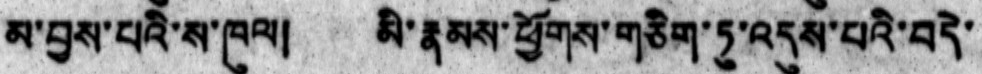མ་བྱས་པའི་ས་ཁུལ། མི་རྣམས་ཕྱོགས་གཅིག་ཏུ་འདུས་པའི་བདེ་
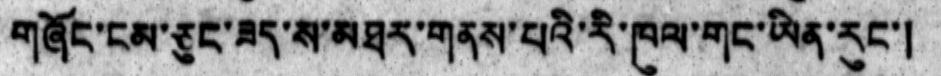གཞོང་ངམ་ཅུང་ཟད་ས་མཐར་གནས་པའི་རི་ཁུལ་གང་ཡིན་རུང་།
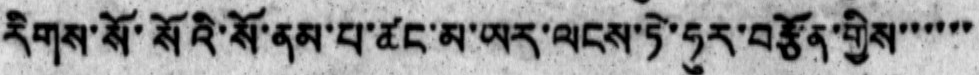རིགས་སོ་སོའི་སོ་ནམ་པ་ཚང་མ་ཡར་ལངས་ཏེ་ཧུར་བརྩོན་གྱིས་་་་་་
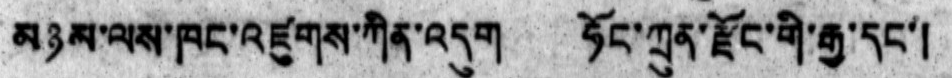མཉམ་ལས་ཁང་འཛུགས་ཀིན་འདུག ཧོང་ཀྲུན་རྫོང་གི་རྒྱ་དང་།
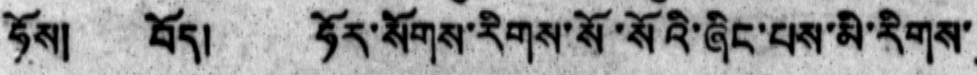ཧོས། བོད། ཧོར་སོགས་རིགས་སོ་སོའི་ཞིང་པས་མི་རིགས་
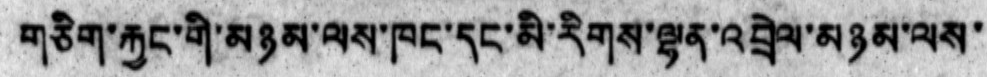གཅིག་རྐྱང་གི་མཉམ་ལས་ཁང་དང་མི་རིགས་ལྷན་འབྲེལ་མཉམ་ལས་
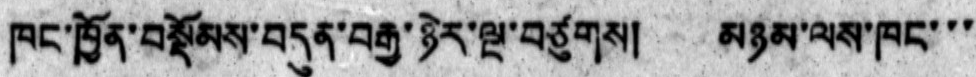ཁང་ཁྱོན་བསྡོམས་བདུན་བརྒྱ་ཉེར་ལྔ་བཙུགས། མཉམ་ལས་ཁང་་་
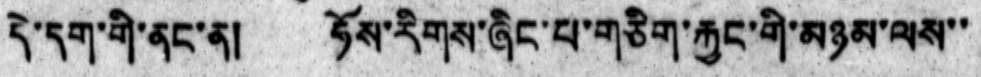དེ་དག་གི་ནང་ན། ཧོས་རིགས་ཞིང་པ་གཅིག་རྐྱང་གི་མཉམ་ལས་་
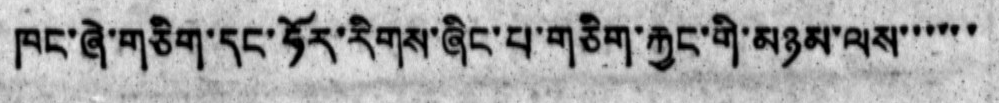ཁང་ཞེ་གཅིག་དང་ཧོར་རིགས་ཞིང་པ་གཅིག་རྐྱང་གི་མཉམ་ལས་་་་་་
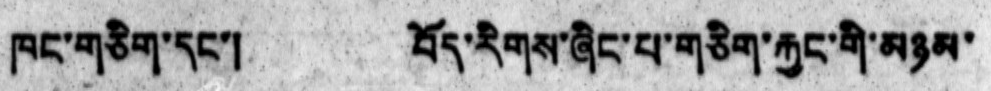ཁང་གཅིག་དང་། བོད་རིགས་ཞིང་པ་གཅིག་རྐྱང་གི་མཉམ་
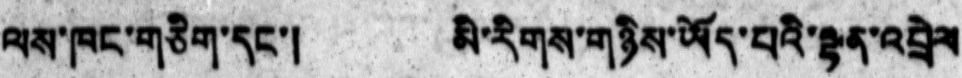ལས་ཁང་གཅིག་དང་། མི་རིགས་གཉིས་ཡོད་པའི་ལྷན་འབྲེལ
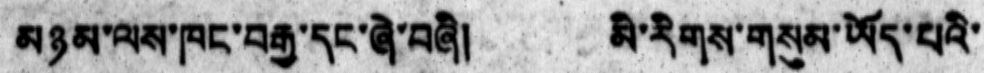མཉམ་ལས་ཁང་བརྒྱ་དང་ཞེ་བཞི། མི་རིགས་གསུམ་ཡོད་པའི་
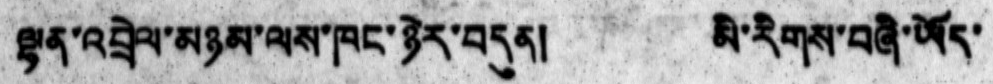ལྷན་འབྲེལ་མཉམ་ལས་ཁང་ཉེར་བདུན། མི་རིགས་བཞི་ཡོད་
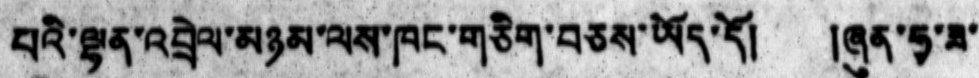པའི་ལྷན་འབྲེལ་མཉམ་ལས་ཁང་གཅིག་བཅས་ཡོད་དོ། །ཞུན་ཧྭ་ཟ་
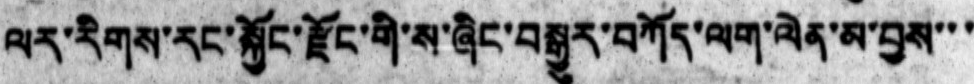ལར་རིགས་རང་སྐྱོང་རྫོང་གི་ས་ཞིང་བསྒྱུར་བཀོད་ལག་ལེན་མ་བྱས་་་
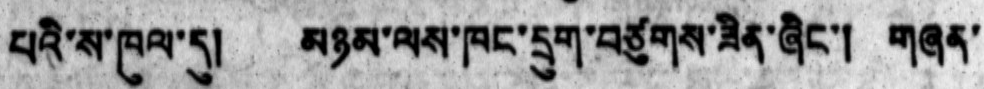པའི་ས་ཁུལ་དུ། མཉམ་ལས་ཁང་དྲུག་བཙུགས་ཟིན་ཞིང་། གཞན་
